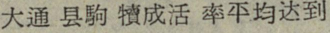大通县駒犢成活率平均达到
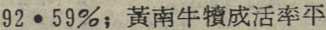92・59％； 黃南牛犢成活率平
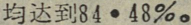均达到84・48％。
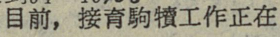目前，接育駒犢工作正在
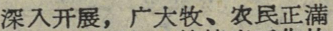深入开展，广大牧、农民正滿
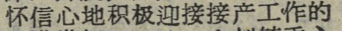怀信心地积极迎接接产工作的
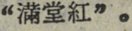“滿堂紅”。
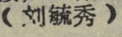（刘毓秀）
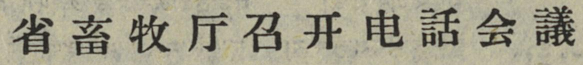省畜牧斤召开电話会議
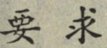要求
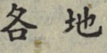各地
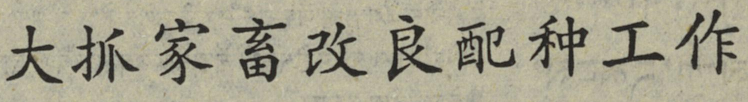大抓家畜改良配种工作
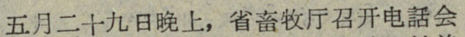五月二十九日晚上，省畜牧厅召开电話会
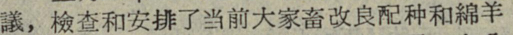議，檢查和安排了当前大家畜改良配种和綿羊
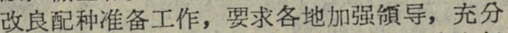改良配种准备工作，要求各地加强領导，充分
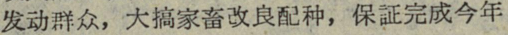发动群众，大搞家畜改良配种，保証完成今年
